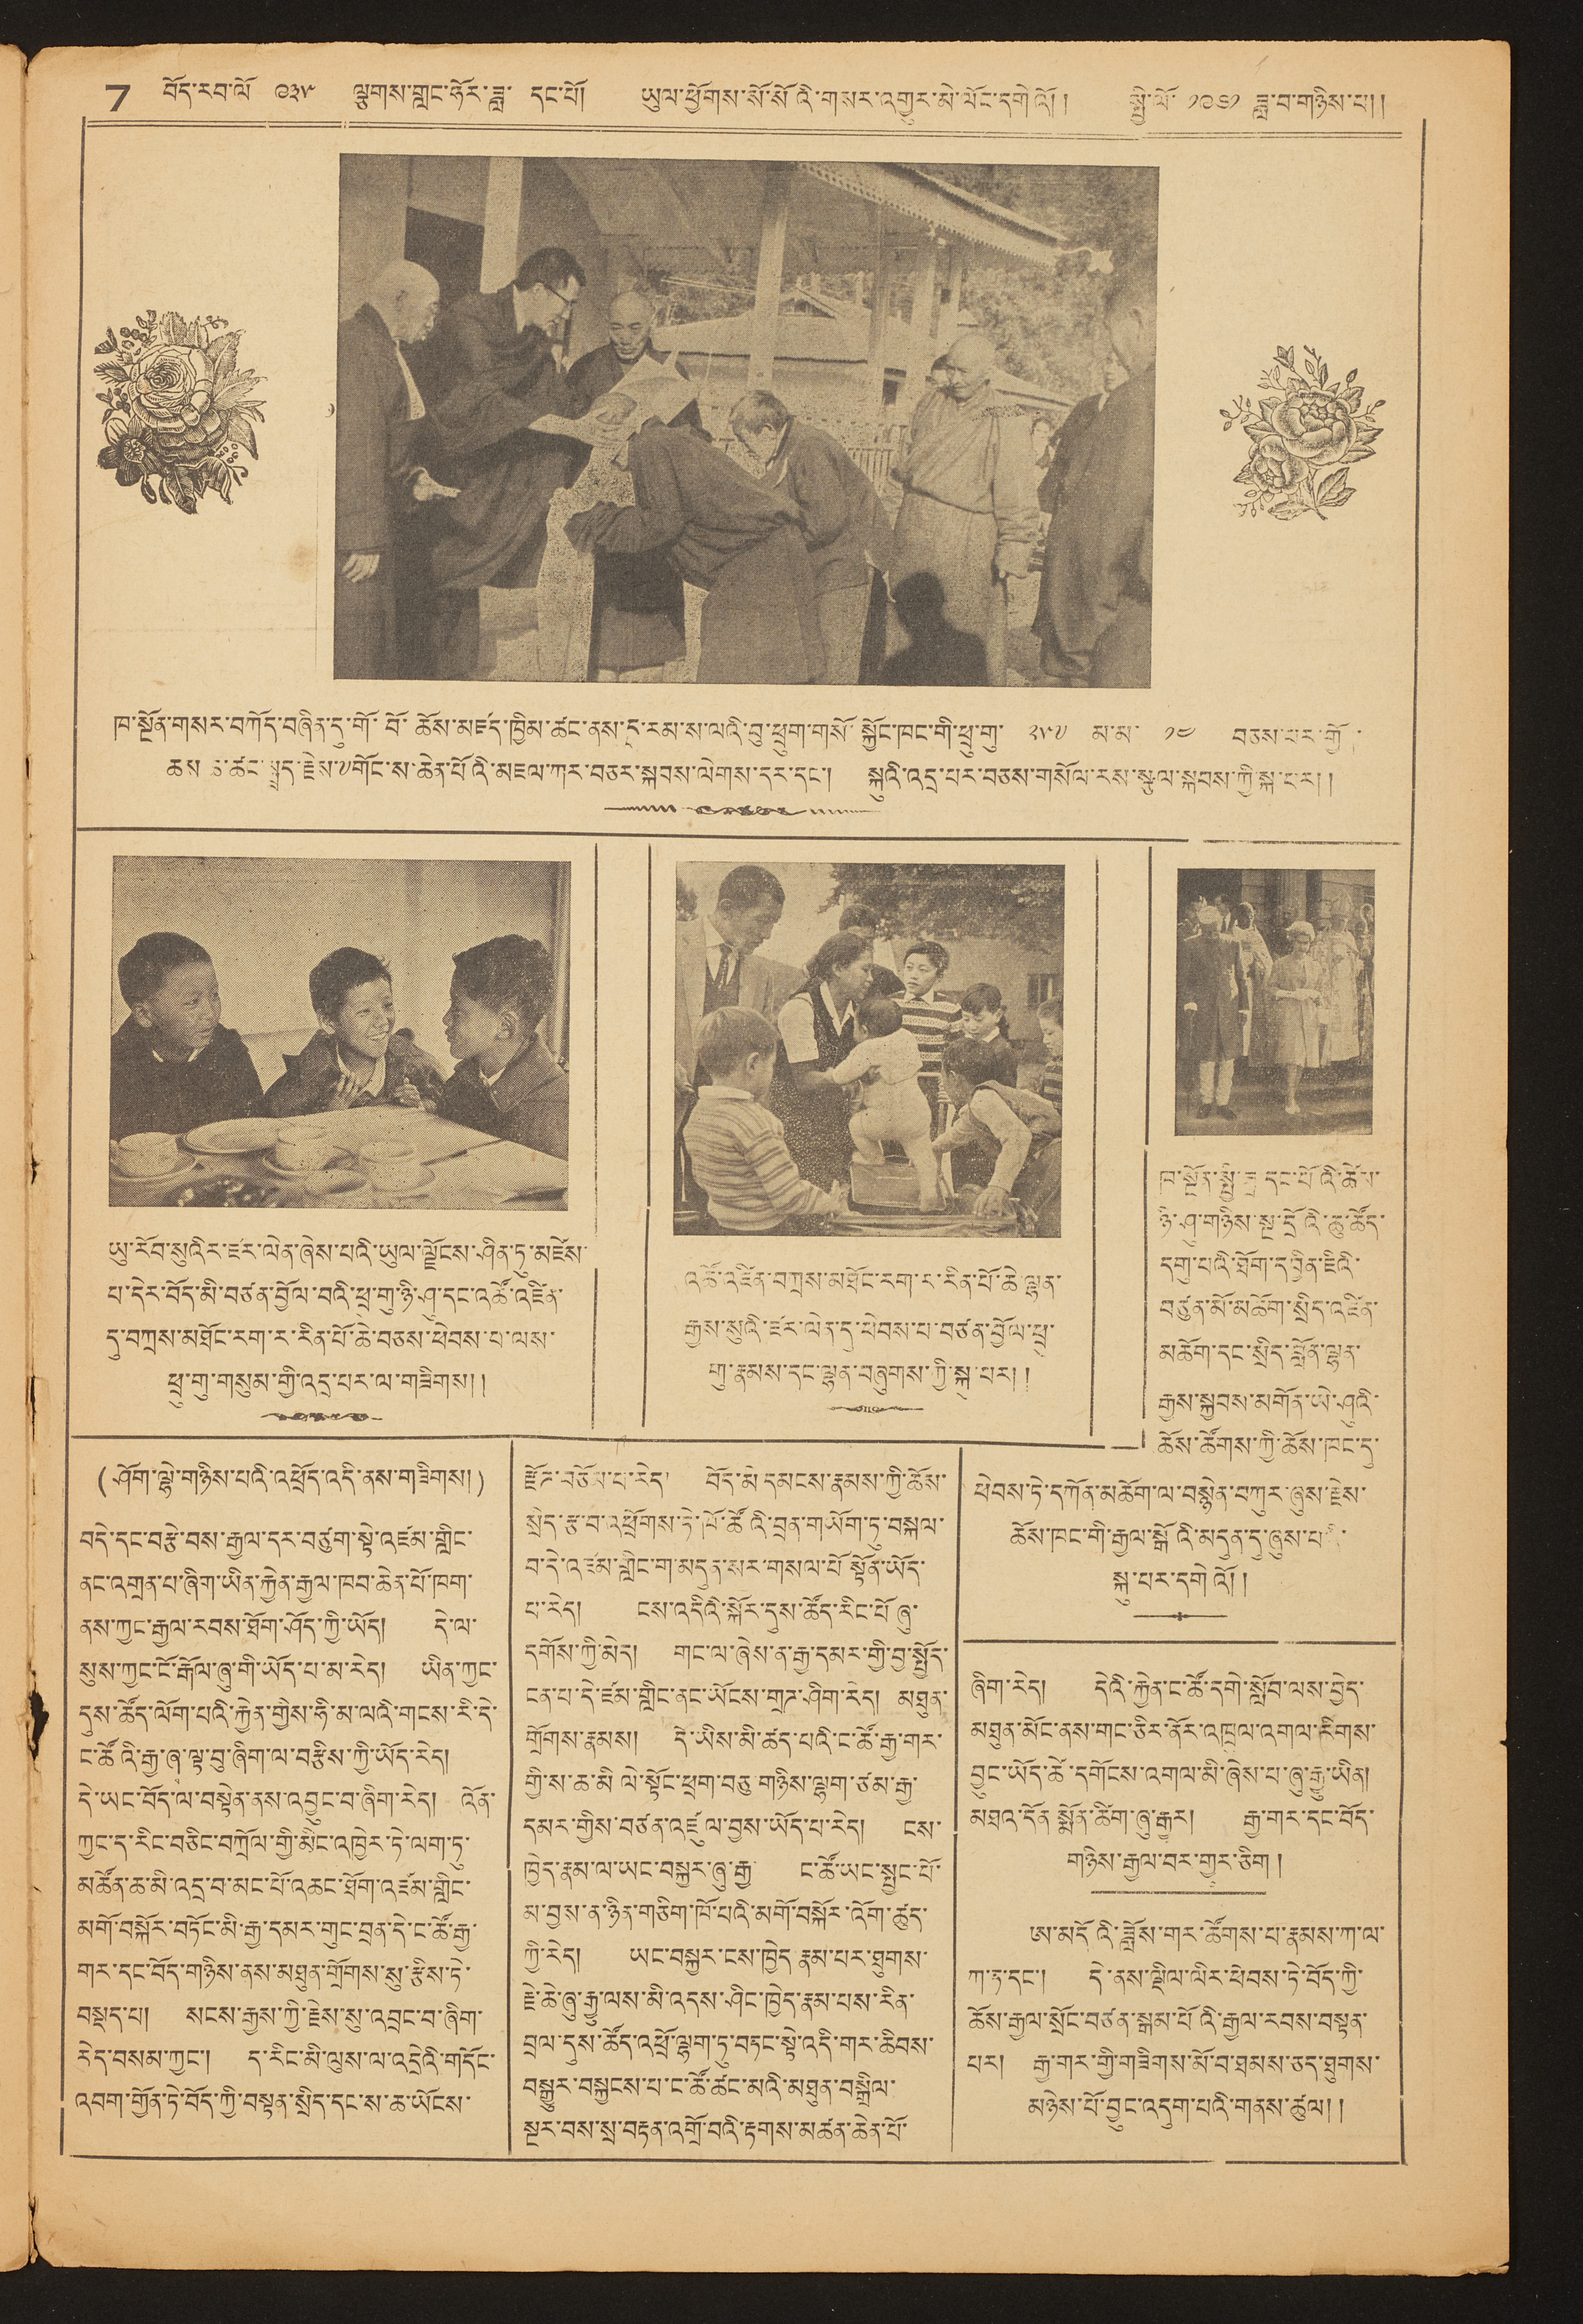7 བོད་རབ་ལོ་ ༩༣༥ ལྕགས་གླང་ཧོར་ཟླ་ དང་པོ། ཡུལ་ཕྱོགས་སོ་སོའི་གསར་འགྱུར་མེ་ལོང་དགེའོ།། སྤྱི་ལོ་ ༡༩༦༢ ཟླ་བ་གཉིས་པ།
ཁ་སྔོན་གསར་བཀོད་བཞིན་དུ་གོ་བོ་ཆོས་མཛད་ཁྱིམ་ཚང་ནས་ད་རམ་ས་ལའི་བུ་ཕྲུག་གསོ་སྐྱོང་ཁང་གི་ཕྲུ་གུ་ ༢༥༧ མ་མ་ ༡༤ བཅས་པར་གྱོ་
ཆས་ཆ་ཚང་སྤྲད་རྗེས་༸གོང་ས་ཆེན་པོའི་མཇལ་ཀར་བཅར་སྐབས་ལེགས་དར་དང་། སྐུའི་འདྲ་པར་བཅས་གསོལ་རས་སྩལ་སྐབས་ཀྱི་སྐ་པར།།
ཡུ་རོབ་སུའིར་ཛར་ལེན་ཞེས་པའི་ཡུལ་སྗོངས་ཤིན་ཏུ་མཛེས་
པ་དེར་བོད་མི་བཙན་བྱོལ་བའི་ཕྲུ་གུ་ཉི་ཤུ་དང་འཚོ་འཛིན་
དུ་བཀྲས་མཐོང་རག་ར་རིན་པོ་ཆེ་བཅས་ཕེབས་པ་ལས་
ཕྲུ་གུ་གསུམ་གྱི་འདྲ་པར་ལ་གཟིགས།།
འཚོ་འཛིན་བཀྲས་མཐོང་རག་ར་རིན་པོ་ཆེ་ལྷན་
རྒྱས་སུའི་ཛར་ལེན་དུ་ཕེབས་པ་བཙན་བྱོལ་ཕྲུ་
གུ་རྣམས་དང་ལྷན་བཞུགས་ཀྱི་སྐུ་བར།།
(ཤོག་ལྷེ་གཉིས་པའི་འཕྲོད་འདི་ནས་གཟིགས།)
བདེ་དང་བརྩེ་བས་རྒྱལ་དར་བཙུན་སྟེ་འཛམ་གླིང་
ནང་འགྲན་པ་ཞིག་ཡིན་རྐྱེན་རྒྱལ་ཁབ་ཆེན་པོ་ཁག་
ནས་ཀྱང་རྒྱལ་རབས་ཐོག་ཤོད་ཀྱི་ཡོད། དེ་ལ་
སུས་ཀྱང་ངོ་རྒོལ་ཞུ་གི་ཡོད་པ་མ་རེད། ཡིན་ཀྱང་
དུས་ཚོད་ལོག་པའི་རྐྱེན་གྱིས་ཧི་མ་ལའི་གངས་རི་དེ་
ང་ཚོའི་རྒྱ་ཞྭ་ལྟ་བུ་ཞིག་ལ་བརྩིས་ཀྱི་ཡོད་རེད།
དེ་ཡང་བོད་ལ་བསྟེན་ནས་འབྱུང་བ་ཞིག་རེད། འོན་
ཀྱང་ད་རིང་བཅིང་བཀྲོལ་གྱི་མིང་འཁྱེར་ཏེ་ལག་ཏུ་
མཚོན་ཆ་མི་འདྲ་བ་མང་པོ་འཆང་ཐོག་འཛམ་གླིང་
མགོ་བསྐོར་བཏོང་མི་རྒྱ་དམར་གུང་བྲན་དེ་ང་ཚོ་རྒྱ་
གར་དང་བོད་གཉིས་ནས་མཐུན་གྲོགས་སུ་རྩིས་ཏེ་
བསྡད་པ། སངས་རྒྱས་ཀྱི་རྗེས་སུ་འབྲང་བ་ཞིག་
རེད་བསམ་ཀྱང་། ད་རིང་མི་ལུས་ལ་འདྲེའི་གདོང་
འབག་གྱོན་ཏེ་བོད་ཀྱི་བསྟན་སྲིད་དང་ས་ཆ་ཡོངས་
རྫོཊ་བཅོམ་པ་རེད། བོད་མི དམངས་རྣམས་ཀྱི་ཆོས་
སྲེད་རྩ་བ་འཕྲོགས་ཏེ་ཁོ་ཚོའི་བྲན་གཡོག་ཏུ་བསྐལ་
བ་དེ་འཛམ་གླིང་ག་མདུན་སར་གསལ་པོ་སྟོན་ཡོད་
པ་རེད། ངས་འདིའི་སྐོར་དུས་ཚོད་རིང་པོ ཞུ་
དགོས་ཀྱི་མེད། གང་ལ་ཞེས་ན་རྒྱ་དམར་གྱི་བྱ་སྤྱོད་
ངན་པ་དེ་ཛམ་གླིང་ནང་ཡོངས་གྲཊ་ཤིག་རེད། མཐུན་
གྲོགས་རྣམས། དེ་ཡིས་མི་ཚད་པའི་ང་ཚོ་རྒྱ་གར་
གྱི་ས་ཆ་མི ལེ་སྟོང་ཕྲག་བཅུ་གཉིས་ལྷག་ཙམ་རྒྱ་
དམར་གྱིས་བཙན་འཛུལ་བྱས་ཡོད་པ་རེད། ངས་
ཁྱེད་རྣམ་ལ་ཡང་བསྐྱར་ཞུ་རྒྱ་ ང་ཚོ་ཡང་སྤྱང་པོ་
མ་བྱས་ན་ཉིན་གཅིག་ཁོ་པའི་མགོ་བསྐོར་འོག་ཚུད་
ཀྱི་རེད། ཡང་བསྐྱར་ངས་ཁྱེད་རྣམ་པར་ཐུགས་
རྗེ་ཆེ་ཞུ་རྒྱུ་ལས་མི་འདས་ཤིང་ཁྱེད་རྣམ་པས་རིན་
བྲལ་དུས་ཚོད་འཕྲོ་ལྷག་ཏུ་བཏང་སྟེ་འདི་གར་ཆིབས་
བསྒྱུར་བསྐྱངས་པ་ང་ཚོ་ཚང་མའི་མཐུན་བསྒྲིལ་
སྔར་བས་སྲ་བརྟན་འགྲོ་བའི་རྟགས་མཚན་ཆེན་པོ་
ཁ་སྔོན་སྤྱི་ཟླ་དང་པོའི་ཚེས་
ཉི་ཤུ་གཉིས་སྔ་དྲོའི་ཆུ་ཚོད་
དགུ་པའི་ཐོག་དབྱིན་ཇིའི་
བཙུན་མོ་མཆོག་སྲིད་འཛིན་
མཆོག་དང་སྲིད་བློན་ལྷན་
རྒྱས་སྐྱབས་མགོན་ཡེ་ཤུའི་
ཆོས་ཚོགས་ཀྱི་ཆོས་ཁང་དུ་
ཕེབས་དེ་དཀོན་མཆོག་ལ་བསྙེན་བཀུར་ཞུས་རྗེས་
ཆོས་ཁང་གི་རྒྱལ་སྒོའི་མདུན་དུ་ཞུས་པའི་
སྐུ་པར་དགེའོ།།
ཞིག་རེད། དེའི་རྐྱེན་ང་ཚོ་དགེ་སློབ་ལས་བྱེད་
མཐུན་མོང་ནས་གང་ཅིར་ནོར་འཁྲུལ་འགལ་རིགས་
བྱུང་ཡོད་ཚེ་དགོངས་འགལ་མི་ཞེས་པ་ཞུ་རྒྱུ་ཡིན།
མཐའ་དོན སྨོན་ཚིག་ཞུ་རྒྱུར། རྒྱ་གར་དང་བོད་
གཉིས་རྒྱལ་བར་གྱུར་ཅིག །
ཨ་མདོའི་ཟློས་གར་ཚོགས་པ་རྣམས་ཀ་ལ་
ཀ་ཏ་དང་། དེ་ནས་ལྡིལ་ལིར་ཕེབས་ཏེ་བོད་ཀྱི་
ཆོས་རྒྱལ་སྲོང་བཙན་སྒམ་པོའི་རྒྱལ་རབས་བསྟན་
པར། རྒྱ་གར་གྱི་གཟིགས་མོ་བ་ཐམས་ཅད་ཐུགས་
མཉེས་པོ་བྱུང་འདུག་པའི་གནས་ཚུལ།།
